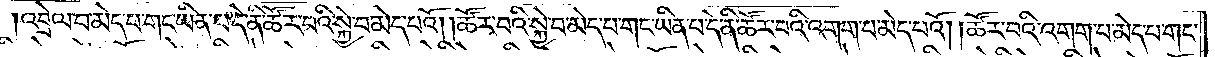འབྲེལ་བ་མེད་པ་གང་ཡིན་པ་དེ་ནི་ཚོར་བའི་སྐྱེ་བ་མེད་པའོ། །ཚོར་བའི་སྐྱེ་བ་མེད་པ་གང་ཡིན་པ་དེ་ནི་ཚོར་བའི་འགག་པ་མེད་པའོ། །ཚོར་བའི་འགག་པ་མེད་པ་གང་
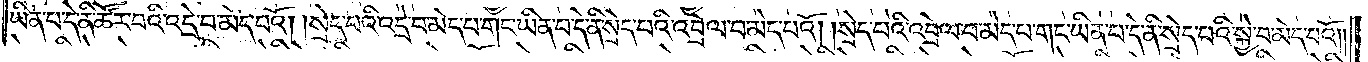ཡིན་པ་དེ་ནི་ཚོར་བའི་འདྲེ་བ་མེད་པའོ། །སྲེད་པའི་འདྲེ་བ་མེད་པ་གང་ཡིན་པ་དེ་ནི་སྲེད་པའི་འབྲེལ་བ་མེད་པའོ། །སྲེད་པའི་འབྲེལ་བ་མེད་པ་གང་ཡིན་པ་དེ་ནི་སྲེད་པའི་སྐྱེ་བ་མེད་པའོ། །
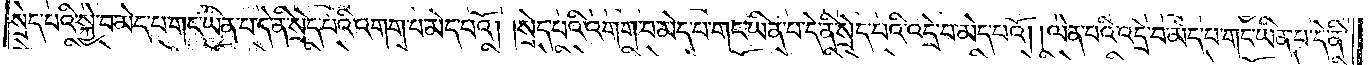སྲེད་པའི་སྐྱེ་བ་མེད་པ་གང་ཡིན་པ་དེ་ནི་སྲེད་པའི་འགག་པ་མེད་པའོ། །སྲེད་པའི་འགག་པ་མེད་པ་གང་ཡིན་པ་དེ་ནི་སྲེད་པའི་འདྲེ་བ་མེད་པའོ། །ལེན་པའི་འདྲེ་བ་མེད་པ་གང་ཡིན་པ་དེ་ནི་
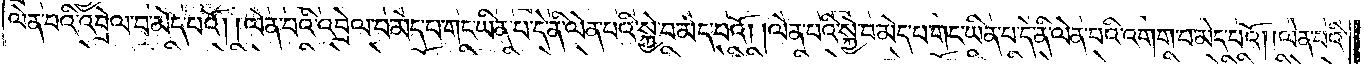ལེན་པའི་འབྲེལ་བ་མེད་པའོ། །ལེན་པའི་འབྲེལ་བ་མེད་པ་གང་ཡིན་པ་དེ་ནི་ལེན་པའི་སྐྱེ་བ་མེད་པའོ། །ལེན་པའི་སྐྱེ་བ་མེད་པ་གང་ཡིན་པ་དེ་ནི་ལེན་པའི་འགག་པ་མེད་པའོ། །ལེན་པའི་
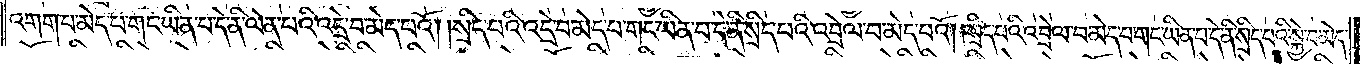འགག་པ་མེད་པ་གང་ཡིན་པ་དེ་ནི་ལེན་པའི་འདྲེ་བ་མེད་པའོ། །སྲིད་པའི་འདྲེ་བ་མེད་པ་གང་ཡིན་པ་དེ་ནི་སྲིད་པའི་འབྲེལ་བ་མེད་པའོ། །སྲིད་པའི་འབྲེལ་བ་མེད་པ་གང་ཡིན་པ་དེ་ནི་སྲིད་པའི་སྐྱེ་བ་མེད་
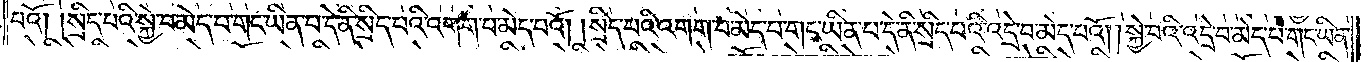པའོ། །སྲིད་པའི་སྐྱེ་བ་མེད་པ་གང་ཡིན་པ་དེ་ནི་སྲིད་པའི་འགག་པ་མེད་པའོ། །སྲིད་པའི་འགག་པ་མེད་པ་གང་ཡིན་པ་དེ་ནི་སྲིད་པའི་འདྲེ་བ་མེད་པའོ། །སྐྱེ་བའི་འདྲེ་བ་མེད་པ་གང་ཡིན་
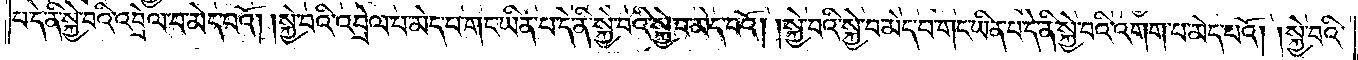པ་དེ་ནི་སྐྱེ་བའི་འབྲེལ་བ་མེད་པའོ། །སྐྱེ་བའི་འབྲེལ་པ་མེད་པ་གང་ཡིན་པ་དེ་ནི་སྐྱེ་བའི་སྐྱེ་བ་མེད་པའོ། །སྐྱེ་བའི་སྐྱེ་བ་མེད་པ་གང་ཡིན་པ་དེ་ནི་སྐྱེ་བའི་འགག་པ་མེད་པའོ། །སྐྱེ་བའི་
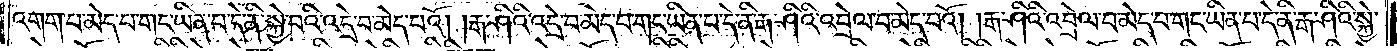འགག་པ་མེད་པ་གང་ཡིན་པ་དེ་ནི་སྐྱེ་བའི་འདྲེ་བ་མེད་པའོ། །རྒ་ཤིའི་འདྲེ་བ་མེད་པ་གང་ཡིན་པ་དེ་ནི་རྒ་ཤིའི་འབྲེལ་བ་མེད་པའོ། །རྒ་ཤིའི་འབྲེལ་བ་མེད་པ་གང་ཡིན་པ་དེ་ནི་རྒ་ཤིའི་སྐྱེ་
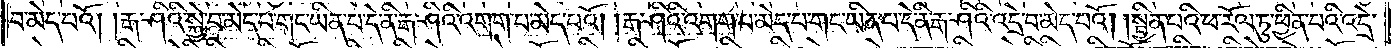བ་མེད་པའོ། །རྒ་ཤིའི་སྐྱེ་བ་མེད་པ་གང་ཡིན་པ་དེ་ནི་རྒ་ཤིའི་འགག་པ་མེད་པའོ། །རྒ་ཤིའི་འགག་པ་མེད་པ་གང་ཡིན་པ་དེ་ནི་རྒ་ཤིའི་འདྲེ་བ་མེད་པའོ། །སྦྱིན་པའི་ཕ་རོལ་ཏུ་ཕྱིན་པའི་འདྲེ་
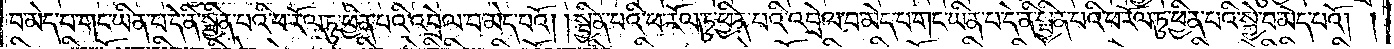བ་མེད་པ་གང་ཡིན་པ་དེ་ནི་སྦྱིན་པའི་ཕ་རོལ་ཏུ་ཕྱིན་པའི་འབྲེལ་བ་མེད་པའོ། །སྦྱིན་པའི་ཕ་རོལ་ཏུ་ཕྱིན་པའི་འབྲེལ་པ་མེད་པ་གང་ཡིན་པ་དེ་ནི་སྦྱིན་པའི་ཕ་རོལ་ཏུ་ཕྱིན་པའི་སྐྱེ་བ་མེད་པའོ། །
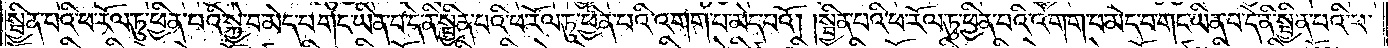སྦྱིན་པའི་ཕ་རོལ་ཏུ་ཕྱིན་པའི་སྐྱེ་བ་མེད་པ་གང་ཡིན་པ་དེ་ནི་སྦྱིན་པའི་ཕ་རོལ་ཏུ་ཕྱིན་པའི་འགག་པ་མེད་པའོ། །སྦྱིན་པའི་ཕ་རོལ་ཏུ་ཕྱིན་པའི་འགག་པ་མེད་པ་གང་ཡིན་པ་དེ་ནི་སྦྱིན་པའི་ཕ་
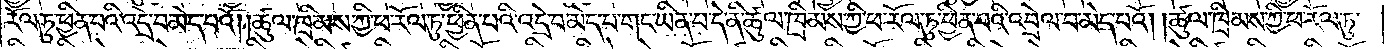རོལ་ཏུ་ཕྱིན་པའི་འདྲེ་བ་མེད་པའོ། །ཚུལ་ཁྲིམས་ཀྱི་ཕ་རོལ་ཏུ་ཕྱིན་པའི་འདྲེ་བ་མེད་པ་གང་ཡིན་པ་དེ་ནི་ཚུལ་ཁྲིམས་ཀྱི་ཕ་རོལ་ཏུ་ཕྱིན་པའི་འབྲེལ་བ་མེད་པའོ། །ཚུལ་ཁྲིམས་ཀྱི་ཕ་རོལ་ཏུ་
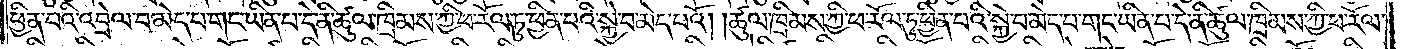ཕྱིན་པའི་འབྲེལ་བ་མེད་པ་གང་ཡིན་པ་དེ་ནི་ཚུལ་ཁྲིམས་ཀྱི་ཕ་རོལ་ཏུ་ཕྱིན་པའི་སྐྱེ་བ་མེད་པའོ། །ཚུལ་ཁྲིམས་ཀྱི་ཕ་རོལ་ཏུ་ཕྱིན་པའི་སྐྱེ་བ་མེད་པ་གང་ཡིན་པ་དེ་ནི་ཚུལ་ཁྲིམས་ཀྱི་ཕ་རོལ་
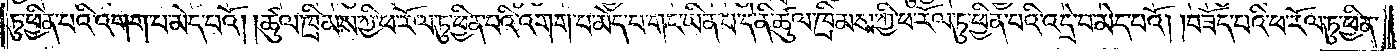ཏུ་ཕྱིན་པའི་འགག་པ་མེད་པའོ། །ཚུལ་ཁྲིམས་ཀྱི་ཕ་རོལ་ཏུ་ཕྱིན་པའི་འགག་པ་མེད་པ་གང་ཡིན་པ་དེ་ནི་ཚུལ་ཁྲིམས་ཀྱི་ཕ་རོལ་ཏུ་ཕྱིན་པའི་འདྲེ་བ་མེད་པའོ། །བཟོད་པའི་ཕ་རོལ་ཏུ་ཕྱིན་
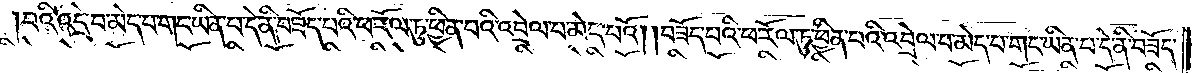པའི་འདྲེ་བ་མེད་པ་གང་ཡིན་པ་དེ་ནི་བཟོད་པའི་ཕ་རོལ་ཏུ་ཕྱིན་པའི་འབྲེལ་པ་མེད་པའོ། །བཟོད་པའི་ཕ་རོལ་ཏུ་ཕྱིན་པའི་འབྲེལ་པ་མེད་པ་གང་ཡིན་པ་དེ་ནི་བཟོད་
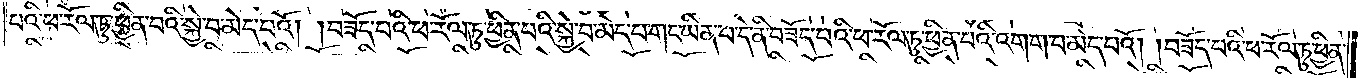པའི་ཕ་རོལ་ཏུ་ཕྱིན་པའི་སྐྱེ་བ་མེད་པའོ། །བཟོད་པའི་ཕ་རོལ་ཏུ་ཕྱིན་པའི་སྐྱེ་བ་མེད་པ་གང་ཡིན་པ་དེ་ནི་བཟོད་པའི་ཕ་རོལ་ཏུ་ཕྱིན་པའི་འགག་པ་མེད་པའོ། །བཟོད་པའི་ཕ་རོལ་ཏུ་ཕྱིན་
